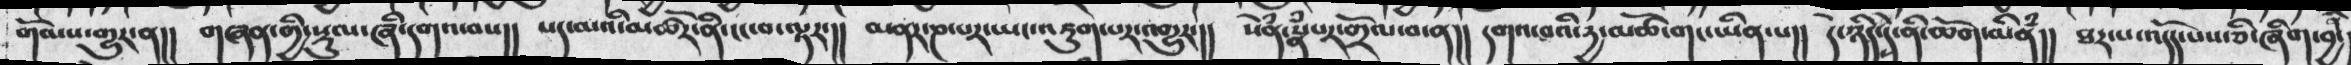གོམས་གྱུར་ན།། གཞན་གྱི་སྡུལ་ཞི་དགའ་བས།།  པད་མའི་མཚོར་ནི་ངང་བ་ལྟར་།།  མནར་ཎ་པར་ཡང་འཇུག་པར་འགྱུར་།།  སེཾན་རྣཾ་པར་གྲོལ་བ་ན།། དགའ་བའི་དྱ་མཚོ་གང་ཡིན་པ།། དེ་ཉིད་དེ་ནི་ཆོག་མིནཾ།།  ཐར་པ་འདོད་པས་ཅི་ཞིག་བྱ་
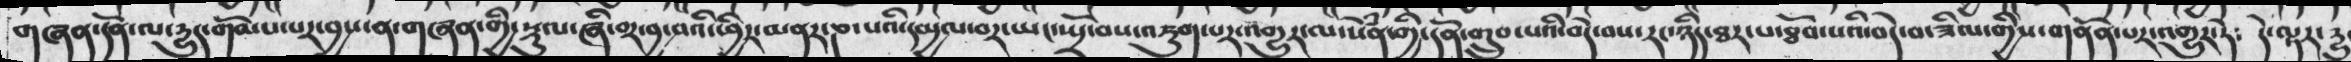གཞན་དོན་ལ་དྱུད་གོམས་པར་བྱས་ན་གཞན་གྱི་སྡུལ་ཞི་བར་བྱ་བའི་ཕྱིར་མནར་ཎ་པའི་དམྱལ་བར་ཡང་སྤྲོ་བས་འཇུག་པར་འགྱུར་ལ་སེཾན་གྱི་དོན་གྲུབ་པའི་བདེ་བས་རང་ཉིད་ཐར་པ་ཐོབ་པའི་བདེ་བ་ཟིལ་གྱིས་གནོན་པར་འགྱུར་ཏེ༴ དེ་ལྟར་དྱུ་
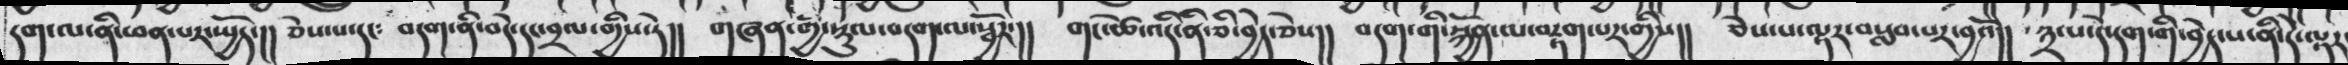དག་ལ་ནི་ཕན་པར་སྤྱོད་།། ཅེས་པ་དང༴ བདག་ནི་བདེ་དང་བྲལ་གྱིས་ཏེ།། གཞཉ་གྱི་སྡུལ་བདག་ལ་སྦྱོར་།། གང་ཚེ་འདི་ནི་ཅི་བྱེད་ཅེས།། བདག་གི་སྐྱོན་ལ་བརྟག་པར་གྱིས།། ཅེས་པ་ལྟར་བསླབ་པར་བྱའོ།། ༣་པ་དེ་དག་གི་བྱེད་པ་ནི་དེ་ལྟར་
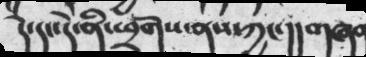དེ་དང་དེ་ནི་ཕྲོགས་ནས་ཀྱང་།།གཞན
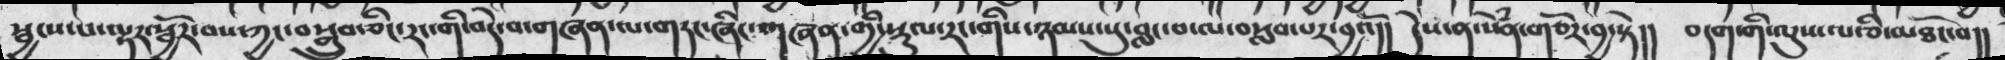སྦྱངས་པ་ལྟར་སྦྱོར་བས་ཀྱང་བསྒྲུབ་ཅིང་རང་གི་བདེ་བ་གཞན་ལ་གཏང་ཞིང་གཞན་གྱི་སྡུལ་རང་གིས་ཉམས་སུ་བླང་བ་ལ་བསླབ་པར་བྱའོ།། དེས་ན་སེཾན་གཅོར་བྱ་སྟེ།།  བདག་གི་ལུས་ལ་ཅི་མཐོང་བ།།
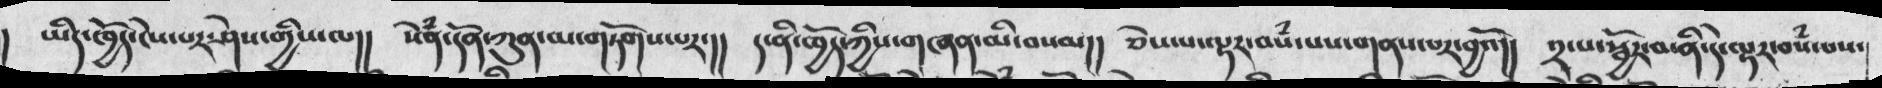། ཡིད་ཁྱོད་ངེས་པར་ཤེས་གྱིས་ལ།།  སེཾན་དོན་ཀུན་མ་གཏོགས་པར་།། ད་ནི་ཁྱོད་ཀྱིས་གཞན་མི་བསམ།།  ཅེས་པ་ལྟར་བསཾ་པས་གནས་པར་བྱའོ།།  ༢་པ་སྦྱོར་བ་ནི་དེ་ལྟར་བསཾ་པས་
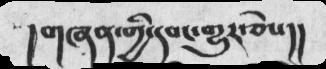།གཞན་གྱི་དབང་གྱུར་ཅེས།།
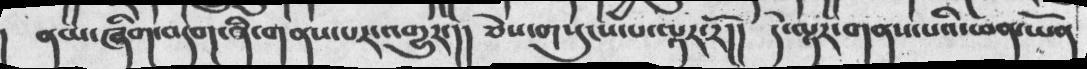། ནམ་ཞིག་བདག་ནི་གནས་པར་འགྱུར་།། ཅེས་གསུངས་པ་ལྟར་རོ།། དེ་ལྟར་གནས་པའི་ཕན་ཡོན
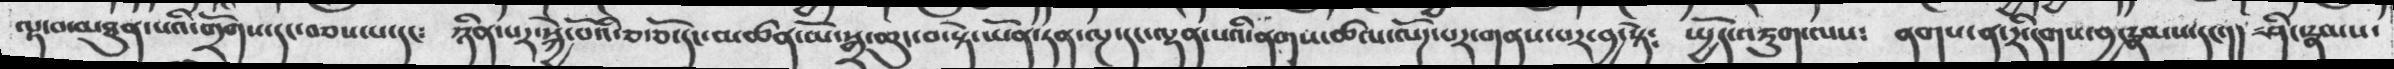ལྟ་བ་མཐུན་པའི་གྲོགས་དང་བཅས་པ་དང༴ ཉིན་པར་སྐྱེ་བོའི་ཅ་ཅོ་དང་མཚན་མོ་སྒྲ་ཆུང་བ་སྟེ་ཡོན་ཏན་ལྔ་དང་ལྡན་པའི་ནགས་ཚལ་ལོཌ་པར་གནས་པར་བྱ་སྟེ༴ སྤྱོད་འཇུག་ལས༴ ནགས་ན་རི་དགས་བྱ་རྣམས་དང་།། ཤིང་རྣམས་
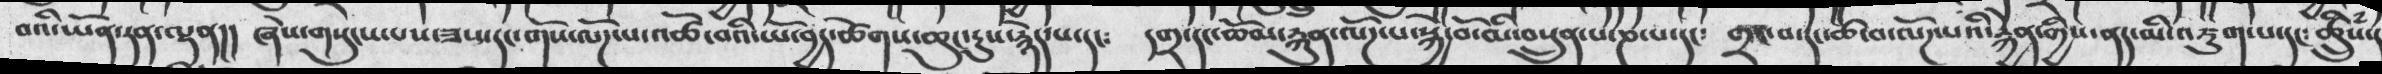བའི་ཡོན་ཏན་ལྡན།། ཞེས་གསུངས་པས་ཟས་དང་གོས་ལོཌ་པ་འཚོ་བའི་ཡོ་བྱད་ཚེགས་ཆུང་ངུས་རྙེད་པ་དང༴  དགྲ་དང་ཆོམ་རྐུན་ལོཌ་པ་སྐྱེ་བོ་མི་བསྲུན་པ་ཎ་པ་དང༴ གྲང་བ་དང་ཚ་བ་ལོཌ་པའི་རྐྱེན་གྱིས་ནད་མི་འཇུག་པ་དང༴ཚྲིུཾས་
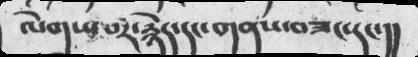ལེགས་པར་རྙེད་དང་གནས་བཟང་དང་།།
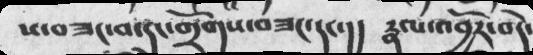ས་བཟང་བ་དང་གྲོགས་བཟང་དང་།།  རྣལ་འབྱོར་བདེ་
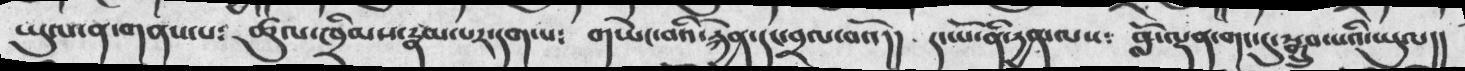ཡུལ་ན་གནས་པ༴   ཚུལ་ཁྲིམས་རྣམ་པར་དག་པ༴  གཡེང་བའི་རྐྱེན་དང་བྲལ་བའོ།།  དང་པོ་ནི་དྱན་ལས༴   བློ་ལྡན་གང་དུ་སྒྲུབ་པའི་ཡུལ།།
